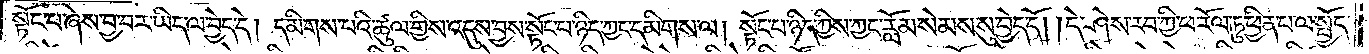སྟོང་པ་ཞེས་བྱ་བར་ཡིད་ལ་བྱེད་དེ། དམིགས་པའི་ཚུལ་གྱིས་འདུས་བྱས་སྟོང་པ་ཉིད་ཀྱང་དམིགས་ལ། སྟོང་པ་ཉིད་ཀྱིས་ཀྱང་རློམ་སེམས་སུ་བྱེད་དོ། །དེ་ཤེས་རབ་ཀྱི་ཕ་རོལ་ཏུ་ཕྱིན་པ་ལ་སྤྱོད་
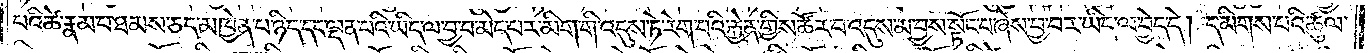པའི་ཚེ་རྣམ་པ་ཐམས་ཅད་མཁྱེན་པ་ཉིད་དང་ལྡན་པའི་ཡིད་ལ་བྱ་བ་མེད་པར་མིག་གི་འདུས་ཏེ་རེག་པའི་རྐྱེན་གྱིས་ཚོར་བ་འདུས་མ་བྱས་སྟོང་པ་ཞེས་བྱ་བར་ཡིད་ལ་བྱེད་དེ། དམིགས་པའི་ཚུལ་
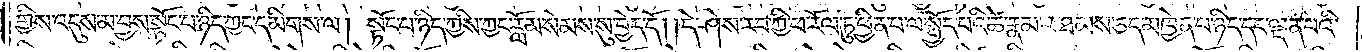གྱིས་འདུས་མ་བྱས་སྟོང་པ་ཉིད་ཀྱང་དམིགས་ལ། སྟོང་པ་ཉིད་ཀྱིས་ཀྱང་རློམ་སེམས་སུ་བྱེད་དོ། །དེ་ཤེས་རབ་ཀྱི་ཕ་རོལ་ཏུ་ཕྱིན་པ་ལ་སྤྱོད་པའི་ཚེ་རྣམ་པ་ཐམས་ཅད་མཁྱེན་པ་ཉིད་དང་ལྡན་པའི་
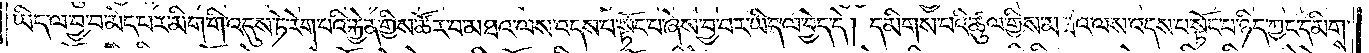ཡིད་ལ་བྱ་བ་མེད་པར་མིག་གི་འདུས་ཏེ་རེག་པའི་རྐྱེན་གྱིས་ཚོར་བ་མཐའ་ལས་འདས་པ་སྟོང་པ་ཞེས་བྱ་བར་ཡིད་ལ་བྱེད་དེ། དམིགས་པའི་ཚུལ་གྱིས་མཐའ་ལས་འདས་པ་སྟོང་པ་ཉིད་ཀྱང་དམིགས་
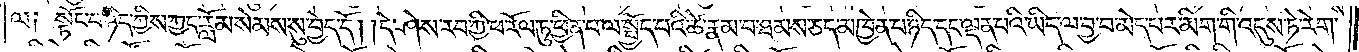ལ༑ སྟོང་པ་ཉིད་ཀྱིས་ཀྱང་རློམ་སེམས་སུ་བྱེད་དོ། །དེ་ཤེས་རབ་ཀྱི་ཕ་རོལ་ཏུ་ཕྱིན་པ་ལ་སྤྱོད་པའི་ཚེ་རྣམ་པ་ཐམས་ཅད་མཁྱེན་པ་ཉིད་དང་ལྡན་པའི་ཡིད་ལ་བྱ་བ་མེད་པར་མིག་གི་འདུས་ཏེ་རེག་
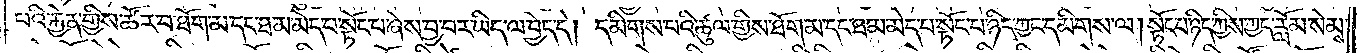པའི་རྐྱེན་གྱིས་ཚོར་བ་ཐོག་མ་དང་ཐ་མ་མེད་པ་སྟོང་པ་ཞེས་བྱ་བར་ཡིད་ལ་བྱེད་དེ། དམིགས་པའི་ཚུལ་གྱིས་ཐོག་མ་དང་ཐ་མ་མེད་པ་སྟོང་པ་ཉིད་ཀྱང་དམིགས་ལ། སྟོང་པ་ཉིད་ཀྱིས་ཀྱང་རློམ་སེམས་
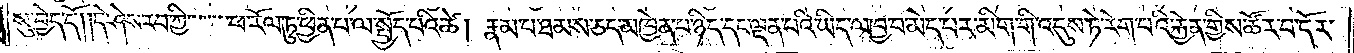སུ་བྱེད་དོ། །དེ་ཤེས་རབ་ཀྱི་ཕ་རོལ་ཏུ་ཕྱིན་པ་ལ་སྤྱོད་པའི་ཚེ། རྣམ་པ་ཐམས་ཅད་མཁྱེན་པ་ཉིད་དང་ལྡན་པའི་ཡིད་ལ་བྱ་བ་མེད་པར་མིག་གི་འདུས་ཏེ་རེག་པའི་རྐྱེན་གྱིས་ཚོར་བ་དོར་
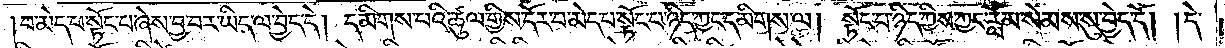བ་མེད་པ་སྟོང་པ་ཞེས་བྱ་བར་ཡིད་ལ་བྱེད་དེ། དམིགས་པའི་ཚུལ་གྱིས་དོར་བ་མེད་པ་སྟོང་པ་ཉིད་ཀྱང་དམིགས་ལ། སྟོང་པ་ཉིད་ཀྱིས་ཀྱང་རློམ་སེམས་སུ་བྱེད་དོ། །དེ་
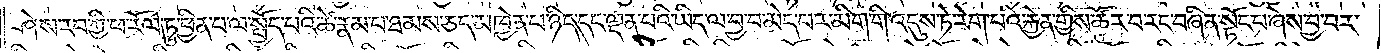ཤེས་རབ་ཀྱི་ཕ་རོལ་ཏུ་ཕྱིན་པ་ལ་སྤྱོད་པའི་ཚེ་རྣམ་པ་ཐམས་ཅད་མཁྱེན་པ་ཉིད་དང་ལྡན་པའི་ཡིད་ལ་བྱ་བ་མེད་པར་མིག་གི་འདུས་ཏེ་རེག་པའི་རྐྱེན་གྱིས་ཚོར་བ་རང་བཞིན་སྟོང་པ་ཞེས་བྱ་བར་
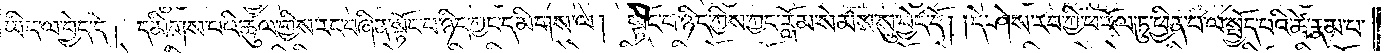ཡིད་ལ་བྱེད་དེ། དམིགས་པའི་ཚུལ་གྱིས་རང་བཞིན་སྟོང་པ་ཉིད་ཀྱང་དམིགས་ལ། སྟོང་པ་ཉིད་ཀྱིས་ཀྱང་རློམ་སེམས་སུ་བྱེད་དོ། །དེ་ཤེས་རབ་ཀྱི་ཕ་རོལ་ཏུ་ཕྱིན་པ་ལ་སྤྱོད་པའི་ཚེ་རྣམ་པ་
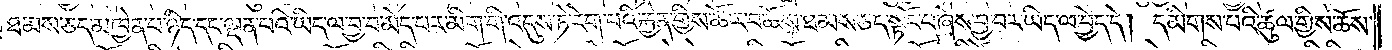ཐམས་ཅད་མཁྱེན་པ་ཉིད་དང་ལྡན་པའི་ཡིད་ལ་བྱ་བ་མེད་པར་མིག་གི་འདུས་ཏེ་རེག་པའི་རྐྱེན་གྱིས་ཚོར་བ་ཆོས་ཐམས་ཅད་སྟོང་པ་ཞེས་བྱ་བར་ཡིད་ལ་བྱེད་དེ། དམིགས་པའི་ཚུལ་གྱིས་ཆོས་
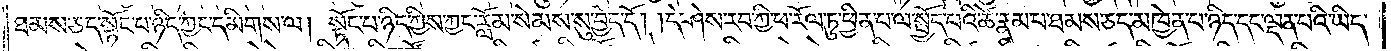ཐམས་ཅད་སྟོང་པ་ཉིད་ཀྱང་དམིགས་ལ། སྟོང་པ་ཉིད་ཀྱིས་ཀྱང་རློམ་སེམས་སུ་བྱེད་དོ། །དེ་ཤེས་རབ་ཀྱི་ཕ་རོལ་ཏུ་ཕྱིན་པ་ལ་སྤྱོད་པའི་ཚེ་རྣམ་པ་ཐམས་ཅད་མཁྱེན་པ་ཉིད་དང་ལྡན་པའི་ཡིད་
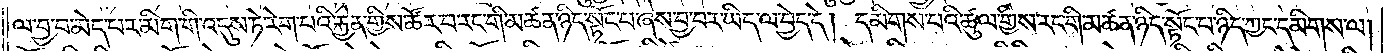ལ་བྱ་བ་མེད་པར་མིག་གི་འདུས་ཏེ་རེག་པའི་རྐྱེན་གྱིས་ཚོར་བ་རང་གི་མཚན་ཉིད་སྟོང་པ་ཞེས་བྱ་བར་ཡིད་ལ་བྱེད་དེ། དམིགས་པའི་ཚུལ་གྱིས་རང་གི་མཚན་ཉིད་སྟོང་པ་ཉིད་ཀྱང་དམིགས་ལ།
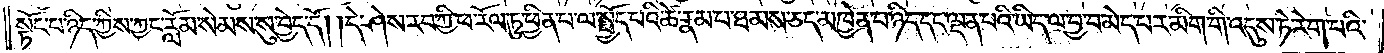སྟོང་པ་ཉིད་ཀྱིས་ཀྱང་རློམ་སེམས་སུ་བྱེད་དོ། །དེ་ཤེས་རབ་ཀྱི་ཕ་རོལ་ཏུ་ཕྱིན་པ་ལ་སྤྱོད་པའི་ཚེ་རྣམ་པ་ཐམས་ཅད་མཁྱེན་པ་ཉིད་དང་ལྡན་པའི་ཡིད་ལ་བྱ་བ་མེད་པར་མིག་གི་འདུས་ཏེ་རེག་པའི་
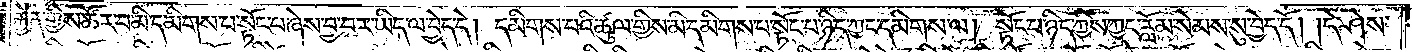རྐྱེན་གྱིས་ཚོར་བ་མི་དམིགས་པ་སྟོང་པ་ཞེས་བྱ་བར་ཡིད་ལ་བྱེད་དེ། དམིགས་པའི་ཚུལ་གྱིས་མི་དམིགས་པ་སྟོང་པ་ཉིད་ཀྱང་དམིགས་ལ། སྟོང་པ་ཉིད་ཀྱིས་ཀྱང་རློམ་སེམས་སུ་བྱེད་དོ། །དེ་ཤེས་
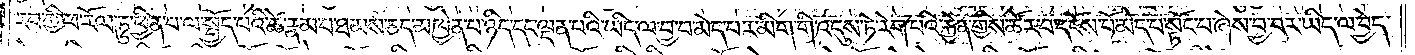རབ་ཀྱི་ཕ་རོལ་ཏུ་ཕྱིན་པ་ལ་སྤྱོད་པའི་ཚེ་རྣམ་པ་ཐམས་ཅད་མཁྱེན་པ་ཉིད་དང་ལྡན་པའི་ཡིད་ལ་བྱ་བ་མེད་པར་མིག་གི་འདུས་ཏེ་རེག་པའི་རྐྱེན་གྱིས་ཚོར་བ་དངོས་པོ་མེད་པ་སྟོང་པ་ཞེས་བྱ་བར་ཡིད་ལ་བྱེད་
